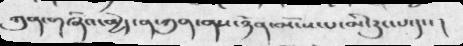ཀུན་གཞིའ་མྱེད་ན་ཀུན་ནས་ཉོན་མོངས་པ་མི་རུང་པ་དང་།
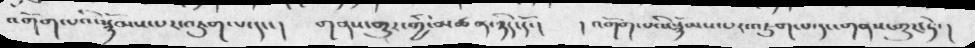འགོག་པའི་སྙོམས་པར་འཇུག་པ་དང་།    གནས་གྱུར་གྱི་མཚན་ཉིད་དོ་།   །  འགོག་པའི་སྙོམས་པར་འཇུག་པ་དང་གནས་གྱུར་ཏེ་།
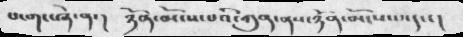པ་གང་ཞེ་ན་།    ཉོན་མོངས་པའི་ཀུན་ནས་ཉོན་མོངས་པ་དང་།
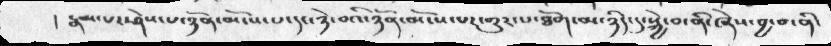།  རྣམ་པར་ཤེས་པ་ཉོན་མོངས་པ་དང་ཉེ་བའི་ཉོན་མོངས་པར་གྱུར་པ་ཐོག་མ་ཉིད་དུ་སྐྱེ་བ་ནི་ཞེས་བྱ་བ་ནི་
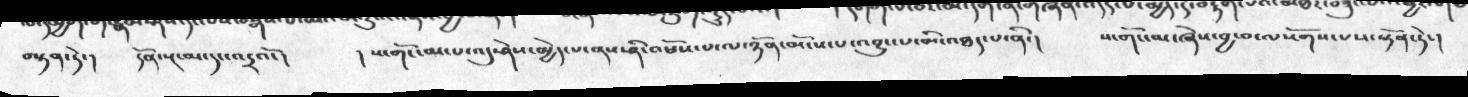བསྟན་ཏེ་།  དོན་སྔ་མ་དང་འདྲའོ་།   ། ས་གོང་མ་པ་འདུ་ཤེས་མྱེད་པ་ནས་ནི་འཕོས་པ་ལ་ཉོན་མོང་ས་པ་འབྱུང་པ་མི་འཐད་པ་ནི་།  ས་གོང་མ་ཞེས་བྱ་བ་ལསོགས་པས་སྟོན་ཏེ་།
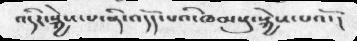འདིར་སྐྱེས་པ་ནི་འདོད་པའི་ཁམསུ་སྐྱེས་པའོ་ །
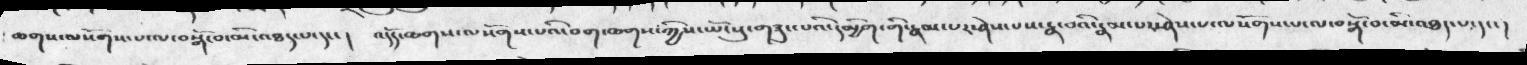ཆགས་ལསོགས་པ་ལ་བསྒོ་བ་མི་འཐད་པ་དང་།    འདོད་ཆགས་ལསོགས་པའི་བག་ཆགས་ཀྱིས་ཡོངས་སུ་གཟུང་པའི་དམྱིག་གི་རྣམ་པར་ཤེས་པས་རྣ་བའི་རྣམ་པར་ཤེས་པ་ལསོགས་པ་ལ་བསྒོ་བ་མི་འཐད་པ་དང་།
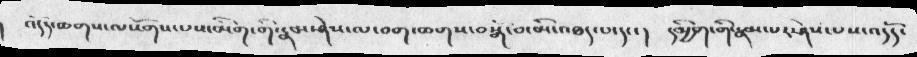འདོད་ཆགས་ལསོགས་པས་མིག་གི་རྣམ་ཤེས་ལ་བག་ཆགས་བསྒོ་བ་མི་འཐད་པ་དང་ །     དམྱིག་གི་རྣམ་པར་ཤེས་པས་འདོད་
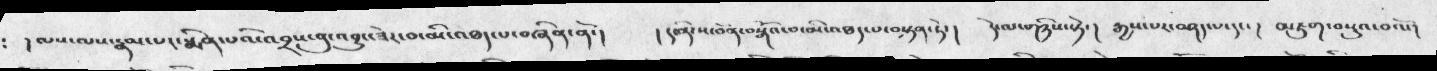། ལས་ལས་རྣམ་པར་སྨིན་པའི་འབྲས་བུ་འབྱུང་ཟེར་བ་མི་འཐད་པ་བཞིན་ནོ་།   ། ད་ནི་ས་བོན་བསྒོའ་བ་མི་འཐད་པ་བསྟན་ཏེ་།   དེ་ལ་གཉིས་ཏེ་།  རྒྱས་པར་བཤད་པ་དང་།    མཇུག་བསྡུའ་བའོ་།
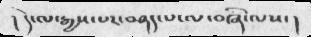། དེ་ལ་རྒྱས་པར་བཤད་པ་ལ་བཞི་ལས་ །
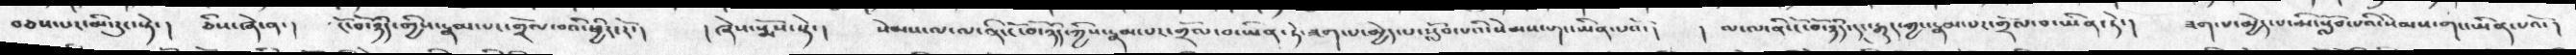བཅས་པར་མི་རུང་སྟེ་།   ཅིས་ཞེ་ན་།   ངོ་བོ་ཉིད་གྱིས་རྣམ་པར་གྲོལ་བའི་ཕྱིར་རོ་།    །ཞེས་སྨོས་སྟེ་།   སེམས་ལ་ལ་ནི་ངོ་བོ་ཉིད་ཀྱིས་རྣམ་པར་གྲོལ་བ་ཡིན་ཏེ་ཟག་པ་མྱེད་པ་སློབ་པའི་སེམས་གང་ཡིན་པའོ་།   །  ལ་ལ་ནི་ངོ་བོ་ཉིད་དང་རྒྱུད་ཀྱང་རྣམ་པར་གྲོལ་བ་ཡིན་ཏེ་།   ཟག་པ་མྱེད་པ་མི་སློབ་པའི་སེམས་གང་ཡིན་པའོ་།
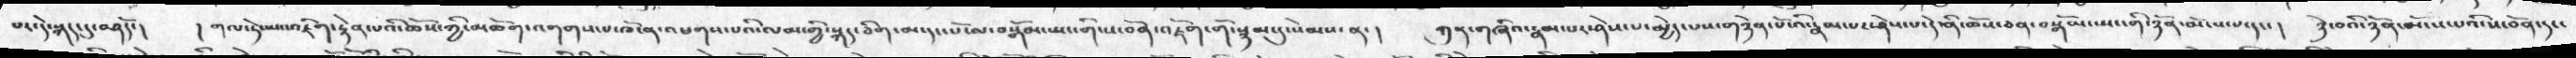པར་དེ་སྐད་དུ་བཤདོ་།   ། གལ་ཏེ་ཡང་འཇིག་རྟེན་པའི་ཆོས་ཀྱི་མཆོག་འགགས་པ་ཁོ་ན་འཕགས་པའི་ལམ་གྱི་སྐད་ཅིག་མ་དང་པོ་ལ་བསྒོམ་སྤང་གི་ས་བོན་འཇོག་གོ་སྙམ་དུ་སེམས་ན་།   ཀུན་གཞིའ་རྣམ་པར་ཤེས་པ་མྱེད་པས་གཉེན་པོ་འི་རྣམ་པར་ཤེས་པ་དེ་ནི་ཆོས་ཅན་བསྒོམ་སྤང་གི་ཉོན་མོངས་པ་དང་ །   ཉེ་བའི་ཉོན་མོངས་པའི་ས་བོན་དང་
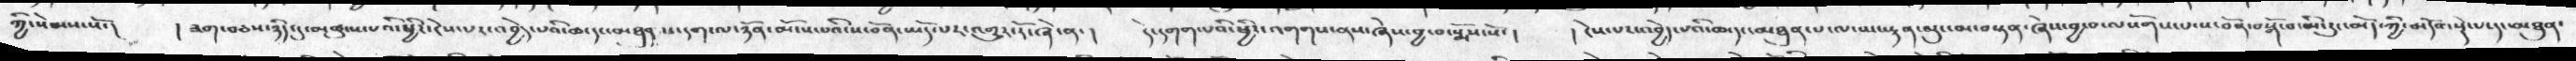ཀྱི་སེམས་སོ་།    ཟག་བཅས་ཉིད་དུ་མཚུངས་པའི་ཕྱིར་ངེས་པར་འབྱེད་པའི་ཆ་དང་མཐུན་པ་དག་ལ་ཉོན་མོངས་པའི་ས་བོན་ཡོད་པར་འགྱུར་རོ་ཞེ་ན་།     དེ་དགག་པའི་ཕྱིར་འགགས་ནས་ཞེས་བྱ་བ་སྨོས་སོ་ །    ། ངེས་པར་འབྱེད་པའི་ཆ་དང་མཐུན་པ་ལ་ཡང་རྟན་ལུང་མ་བསྟན་ཞེས་བྱ་བ་ལསོགས་པ་ས་བོན་བསྒོ་བ་མི་རུང་མོད་ཀྱི་མདོའ་སྡེ་པ་དང་མཐུན་
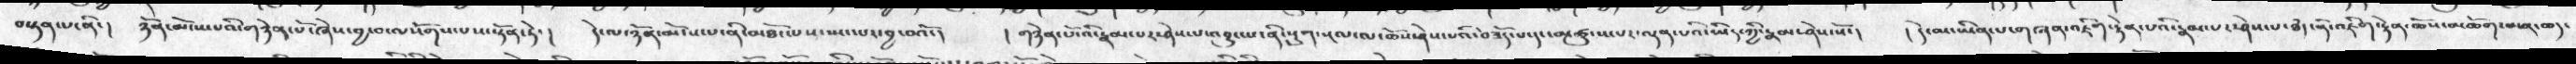བསྟན་པ་ནི་།   ཉོན་མོངས་པའི་གཉེན་པོ་ཞེས་བྱ་བ་ལསོགས་པས་སྟོན་ཏེ་ །   དེ་ལ་ཉོན་མོངས་པ་ནི་མཐོང་པས་སྤང་པར་བྱ་བའོ་།   ། གཉེན་པོ་འི་རྣམ་པར་ཤེས་པ་འབྱུང་པ་ནི་སྡུག་སྔལ་ལ་ཆོས་ཤེས་པའི་བཟོད་པ་དང་མཚུངས་པར་ལྡན་པའི་ཡིད་ཀྱི་རྣམ་ཤེས་སོ་།      དེ་མ་ཡིན་པ་གཞན་འཇིག་རྟེན་པའི་རྣམ་པར་ཤེས་པ་ཐཾད་ནི་འཇིག་རྟེན་ཆོས་མཆོག་མན་ཆད
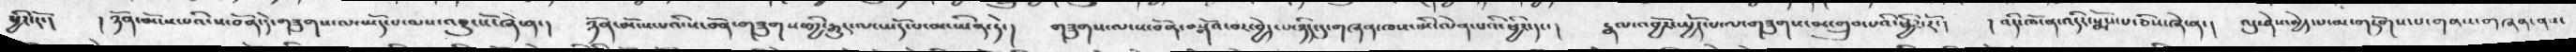ཕྱིར་རོ་།   ། ཉོན་མོངས་པའི་ས་བོན་དེ་གཟུགས་ལ་ཡོད་པ་ལས་འབྱུངསོ་ཞེ་ན་།     ཉོན་མོངས་པའི་ས་བོན་གཟུགས་གྱི་རྒྱུར་ལ་ཡོད་པ་མ་ཡིན་ཏེ་།   གཟུགས་ལ་ས་བོན་བསྒོའ་བར་བྱེད་པ་ཉིད་དུ་གཞན་ཁས་མི་ལེན་པའི་ཕྱིར་དང་།    རྣན་འབྱོར་ཡྱོད་པ་ལ་གཟུགས་མ་གྲུབ་པའི་ཕྱིར་རོ་།   ། འདི་ཁོ་ན་འདིར་སྨོས་པ་ཅི་ཞེ་ན་ །   འདུ་ཤེས་མྱེད་པ་མ་གཏོགས་པ་གནས་གཞན་ནས་
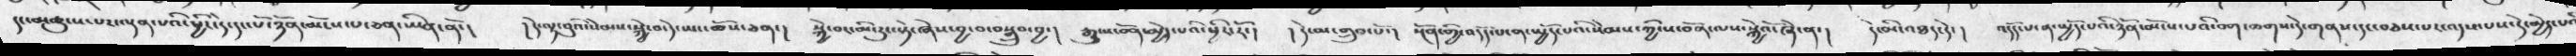དང་མཚུངས་པར་ལྡན་པའི་ཕྱིར་དེ་དང་པོ་ཉོན་མོངས་པ་ཅན་ཡིན་ནོ་།  །དེ་ལྟ་བུའི་སེམས་སྐྱེ་བ་དེ་ཡང་ཆོས་ཅན་།  སྐྱེ་བར་མི་རུང་སྟེ་ཞེས་བྱ་བ་བསྒྲུབ་བྱ་།   རྒྱུ་ས་བོན་མྱེད་པའི་ཕྱིར་རོ་།   ། དེ་མ་གྲུབ་པོ་།   སྔོན་གྱི་འདོད་པ་ན་སྤྱོད་པའི་སེམས་ཀྱི་ས་བོན་ལས་སྐྱེའོ་ཞེ་ན་།   དེ་མི་འཐད་དེ་།   འདོད་པ་ན་སྤྱོད་པའི་ཉོན་མོངས་པའི་བག་ཆགས་དེ་གནས་དང་་བཅས་པར་འདས་པས་དེ་མྱེད་པའི
